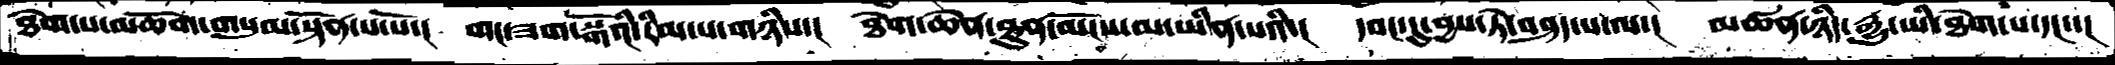ཐེག་པ་མཆོག་གསུམ་སྟོན་པ་པོ་།  གང་ཟག་སྒོའི་རིམ་པ་གཉིས་།  ཐེག་ཆེན་ཐུན་མོངས་མ་ཡིན་པའི་།  དབང་དུ་བྱས་ཏེ་བཤད་པ་ལ་།  མཚན་ཉིད་རྒྱུ་ཡི་ཐེག་པ་དང་་།
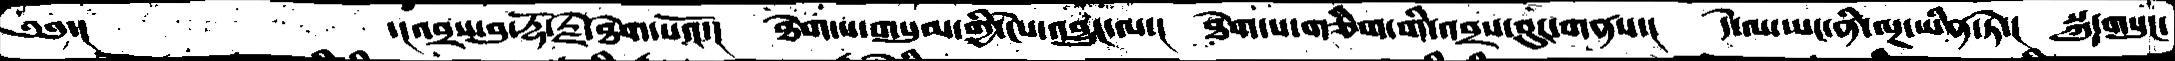༄༅་།        ་།འབྲས་བུ་རྡོ་རྗེ་ཐེག་པའོ་།  ཐེག་པ་གསུམ་གྱི་ངེས་འབྱུང་ལ་།  ཐེག་པ་གཅིག་གི་འབྲས་བུར་གནས་།  དེ་ལ་ཡང་ནི་ལྔ་ཡིན་ཏེ་།  སྐུ་གསུང་
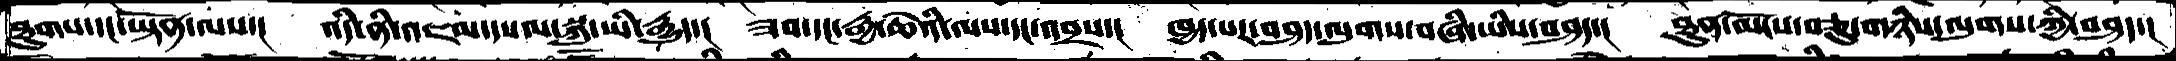ཐུགས་དང་ཡྟོན་ལས་།  འདི་ནི་འཇམ་དཔལ་སྐུ་ཡི་རྒྱུད་།  ཟབ་དང་རྒྱ་ཆེའི་ལས་དང་འབྲས་། ཁྱད་པར་བཤད་ལུགས་བཞི་ཡིས་བཤད་།  ཐུན་མོངས་བཅུ་གཉིས་ལུགས་ཀྱིིི་བཤད་།
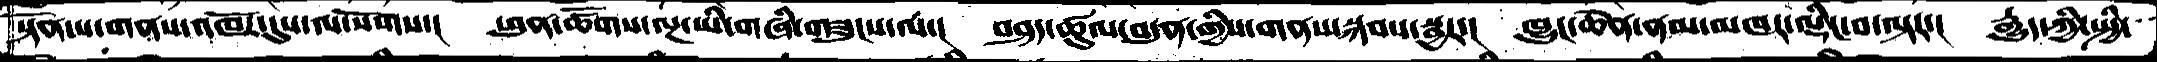སྟོན་པ་གནས་འཁོར་དུས་ལ་སོགས་།  ཕུན་ཚོགས་ལྔ་ཡི་གཞི་གཟུངས་ལ་།  བཤད་ཚུལ་བདུན་གྱི་གནས་སྐབས་སྦྱར་།  ཁྱུང་ཆེན་ནམ་མཁར་ལྡིང་བ་ལྟར་།  རྒྱུད་ཀྱི་སྤྱི་
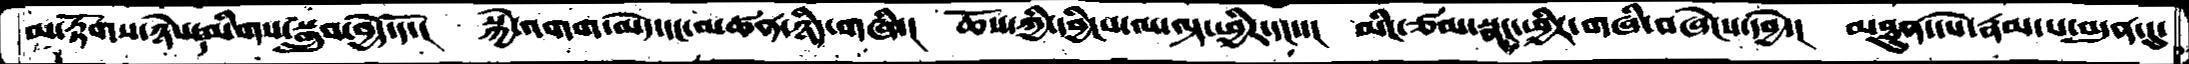མ་རྟོགས་ཉེས་དམིགས་སྒྲུབ་བྱེད་དོ་།  སྐྱེ་འགག་མེད་དང་མཚན་ཉིད་གཞི་།  ཆོས་ཀྱི་དབྱིངས་ལ་ལྟ་ཕྱིར་དང་་།  མིང་ཙམ་སྣང་ཕྱིར་གཞི་བཞེངས་དབྱེ་།  མཐུན་དཔེ་རྣམ་པ་བདུན་དུ
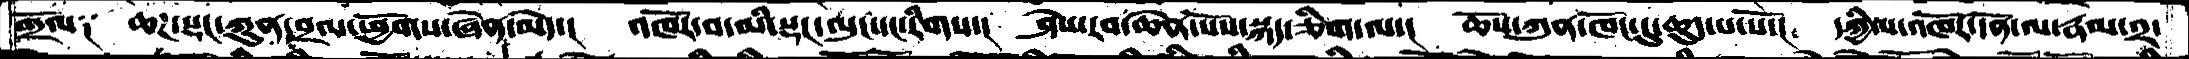གྲོལ༑  ཆཌ་སྡང་ཀུན་བྲལ་ཕྱོགས་ཞེན་མེད་།  འཁོར་བ་མི་སྡང་ལུང་དང་རིགས་།  ཤེས་རབ་ཆེན་པོས་སྐད་ཅིག་ལ་།  ཆོས་ཀུན་ཁོང་དུ་ཆུད་པ་པོ་།  དཀྱིལ་འཁོར་དོན་ལ་རྣམ་༢་
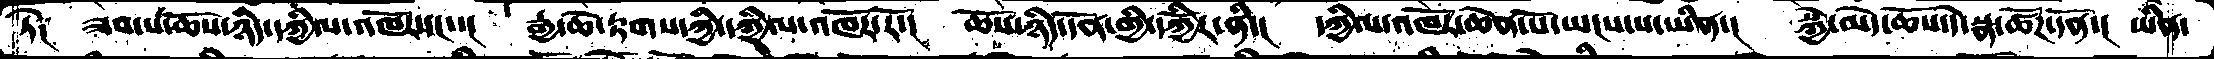ཏེ༑  ཟབ་པ་ཆོས་ཉིད་དཀྱིལ་འཁོར་དང་་།  རྒྱ་ཆེ་རྟགས་ཀྱི་དཀྱིལ་འཁོར་རོ་།  ཆོས་ཉིད་དོན་གྱི་དཀྱོིར་ནི་། དཀྱིལ་འཁོར་ཆེན་པོ་ཡངས་པ་ཡིན་།  སྐྱེ་མེད་ཆོས་དེ་སྣ་ཚོཌ་དོན་།  ཡིན་
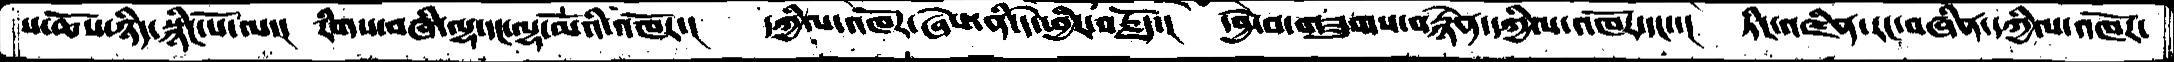པ་ཆོས་ཉིད་སྙིང་པོ་ལ་།  རིགས་བཞི་ལྷ་དང་ལྷ་མོའི་འཁོར་།  དཀྱིལ་འཁོར་ཞེས་ནི་དེ་ཕྱིར་བརྗོད་།  དབྱེ་བ་གཟུགས་བརྙེན་དཀྱིལ་འཁོར་དང་་།  ཏིང་འཛིན་རང་བཞིན་དཀྱིལ་འཁོར་
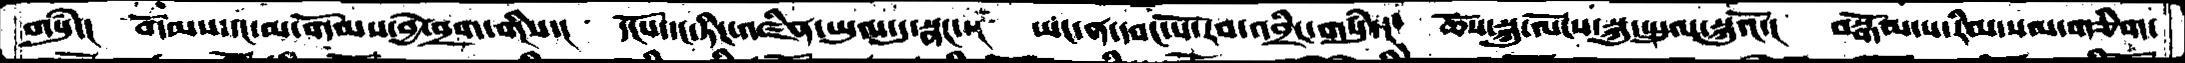གསུཾ་།  གོམས་དང་མ་གོམས་བྱེ་བྲག་གིས་།   དངོས་དང་ཏིང་འཛིན་ཡུལ་དུ་སྣང་་།   ཡང་ན་དབང་པོ་རབ་འབྲིང་གསུཾ་།  ཆོས་སྐུ་ལོངས་སྐུ་སྤྲུལ་སྐུའོ་།  བསྒོམ་པ་རིམ་སམ་གཅིག་
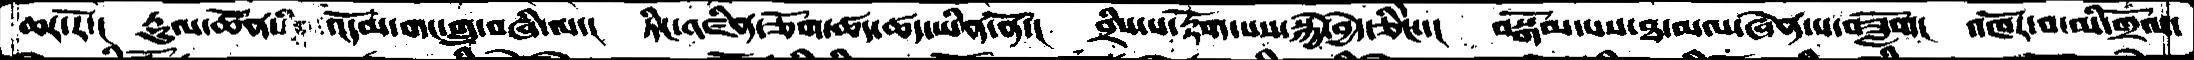ཆར་རོ་།  རྡུལ་ཚོན་འདོམ་གང་གྲུ་བཞི་ལ་།  ཏིང་འཛིན་ཅོག་ཚད་ཚད་ཡིན་ནོ་།  བྲིས་པ་རྟོག་པས་སྐྱེ་བྱེད་ཅིང་་།  བསྒོམ་པས་ཐ་མལ་ཞེན་པ་བཟློག།  འཁོར་བ་མི་གྲོལ་
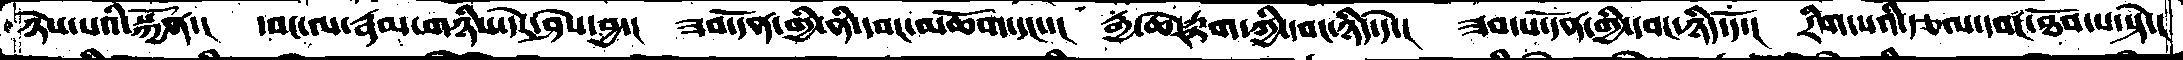ཉེས་པའི་སྐྱོན་།  དབང་ལ་རྣམ་གཉིས་དེར་ཤེས་བྱ་།  ཟབ་དོན་གྱི་ནི་དབང་མཆོག་དང་།  རྒྱ་ཆེར་རྟག་གྱི་དབང་ཉིད་དེ་།  ཟབ་པ་དོན་གྱི་དབང་ཉིད་དོ་།  རིག་པའི་རྩལ་དབང་ཐོབ་པ་སྟེ་།
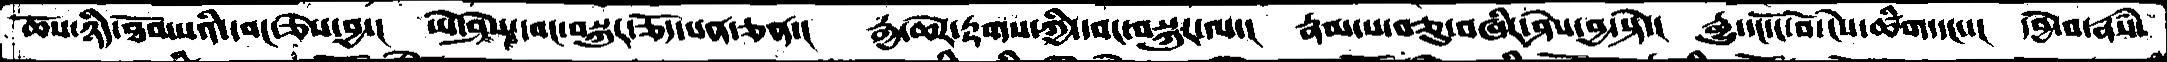ཆོས་ཉིད་ཐོབ་པའི་དབང་ཅེས་བྱ་།  ཡེ་ཤེས་དབང་བསྐུར་ཅོད་པན་ཅན་།  རྒྱ་ཆེར་རྟགས་ཀྱི་དབང་བསྐུར་ལ་།  རྣམ་པ་བཅུ་བཞིར་ཤེས་བྱ་སྟེ་།  རྒྱུ་དང་ངོ་བོ་ངེས་ཚིག་དང་་།  དབྱེ་བ་རྣཾས་
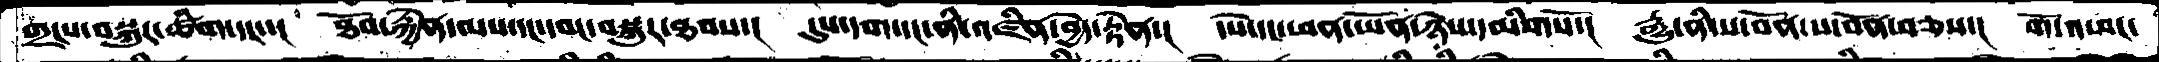གྲངས་བསྐུར་ཚིག་དང་་།  ཐོབ་རྐྱེན་ལས་དང་དབང་བསྐུར་ཐབས་།  དུས་དག་དང་ནི་འཛིན་བྱེད་རྟེན་།  དཔེ་དང་ཕན་ཡོན་ཉེས་དམིགསོ་།  རྒྱུ་ནི་ས་བོན་ས་བོན་བཅས་།  གོ་འཕང་
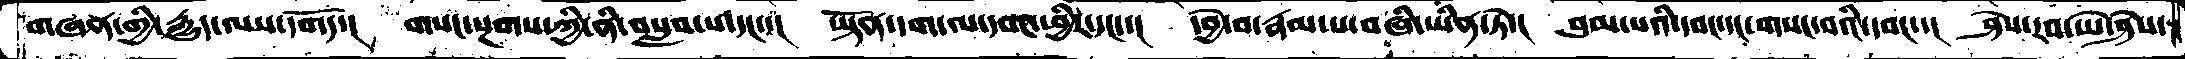གཞན་གྱི་རྒྱུད་ལས་དགོད་།  གསང་སྔཌ་ཀྱི་ནི་བསླབ་པ་དང་་།  ཡྟོན་དག་ལ་དབང་ཕྱིར་དང་་།  དབྱེ་བ་རྣམ་པ་བཞི་ཡིན་ཏེ་།  བུམ་པའི་དབང་དང་གསང་བའི་དབང་་།  ཤེས་རབ་ཡེ་ཤེས་
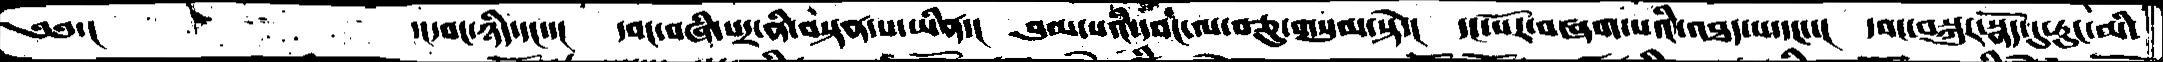༄༅་།   ་།དབང་ཉིད་དང་་།  དབང་བཞི་པར་ནི་བསྟན་པ་ཡིན་།  བུམ་པའི་དབང་ལ་བཅུ་གསུམ་སྟེ་།  དང་པོ་བཞག་པའི་འཐད་པ་དང་་།  དབང་བསྐུར་སྣོད་དུ་རུང་མི་
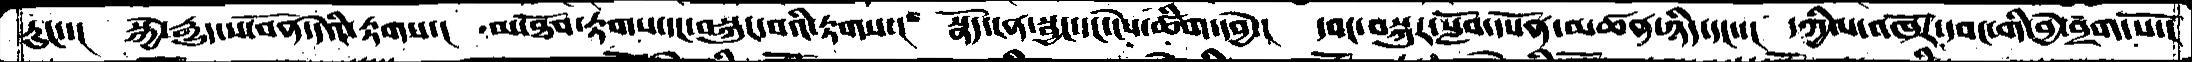རུང་་།  སྐྱེ་རྒྱུད་ས་བོན་དེའི་རྟགས་།  མ་ཐོབ་རྟགས་དང་བསྐུར་བའི་རྟགས་།  སྣོད་ངན་སྦྱང་དང་ངེས་ཚིག་དབྱེ་།  དབང་བསྐུར་སློབ་དཔོན་མཚན་ཉིད་དང་་།  དཀྱིལ་འཁོར་དབང་གི་བྱེ་བྲག་སོ་།
